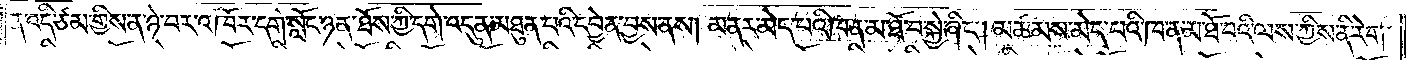ན་འདི་ཙམ་གྱིས་ན་ཉེ་བར་འཁོར་དགེ་སློང་ཉན་ཐོས་ཀྱི་དགེ་འདུན་མཐུན་པའི་དབྱེན་བྱས་ནས། མནར་མེད་པའི་ཁ་ན་མ་ཐོ་བ་སྐྱེ་ཞིང༌། མཚམས་མེད་པའི་ཁ་ན་མ་ཐོ་བའི་ལས་ཀྱིས་ནི་རེག་
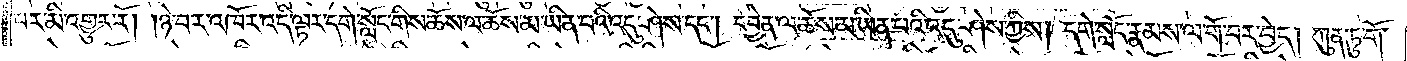པར་མི་འགྱུར་རོ། །ཉེ་བར་འཁོར་འདི་ལྟར་དགེ་སློང་གིས་ཆོས་ལ་ཆོས་མ་ཡིན་པའི་འདུ་ཤེས་དང༌། དབྱེན་ལ་ཆོས་མ་ཡིན་པའི་འདུ་ཤེས་ཀྱིས། དགེ་སློང་རྣམས་ལ་གོ་བར་བྱེད། །ཀུན་ཏུ་གོ་
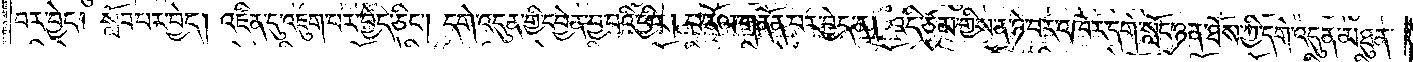བར་བྱེད། སློབ་པར་བྱེད། འཛིན་དུ་འཇུག་པར་བྱེད་ཅིང༌། དགེ་འདུན་གྱི་དབྱེན་བྱ་བའི་ཕྱིར། ཕ་རོལ་གནོན་པར་བྱེད་ན། འདི་ཙམ་གྱིས་ན་ཉེ་བར་འཁོར་དགེ་སློང་ཉན་ཐོས་ཀྱི་དགེ་འདུན་མཐུན་
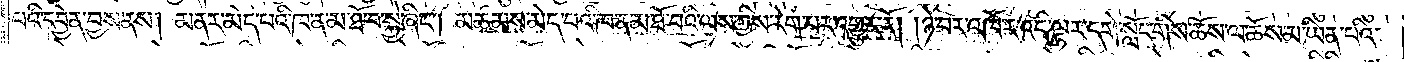པའི་དབྱེན་བྱས་ནས། མནར་མེད་པའི་ཁ་ན་མ་ཐོ་བ་སྐྱེ་ཞིང༌། མཚམས་མེད་པའི་ཁ་ན་མ་ཐོ་བའི་ལས་ཀྱིས་རེག་པར་འགྱུར་རོ། །ཉེ་བར་འཁོར་འདི་ལྟར་དགེ་སློང་གིས་ཆོས་ལ་ཆོས་མ་ཡིན་པའི་
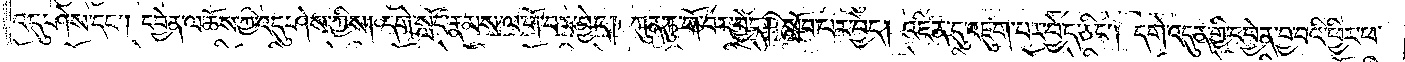འདུ་ཤེས་དང༌། དབྱེན་ལ་ཆོས་ཀྱི་འདུ་ཤེས་ཀྱིས། དགེ་སློང་རྣམས་ལ་གོ་བར་བྱེད། ཀུན་ཏུ་གོ་བར་བྱེད། སློབ་པར་བྱེད། འཛིན་དུ་འཇུག་པར་བྱེད་ཅིང༌། དགེ་འདུན་གྱི་དབྱེན་བྱ་བའི་ཕྱིར་ཕ་
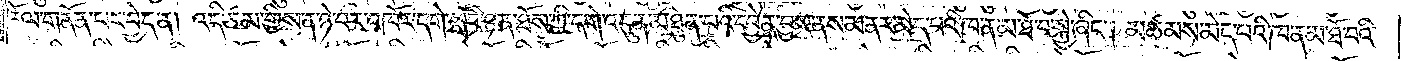རོལ་གནོན་པར་བྱེད་ན། འདི་ཙམ་གྱིས་ན་ཉེ་བར་འཁོར་དགེ་སློང་ཉན་ཐོས་ཀྱི་དགེ་འདུན་མཐུན་པའི་དབྱེན་བྱས་ནས་མནར་མེད་པའི་ཁ་ན་མ་ཐོ་བ་སྐྱེ་ཞིང༌། མཚམས་མེད་པའི་ཁ་ན་མ་ཐོ་བའི་
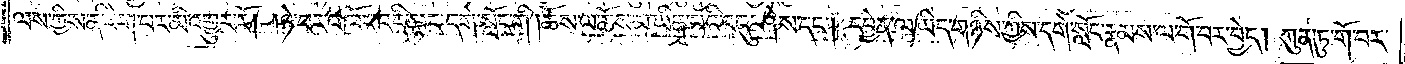ལས་ཀྱིས་ནི་རེག་པར་མི་འགྱུར་རོ། །ཉེ་བར་འཁོར་འདི་ལྟར་དགེ་སློང་གི །ཆོས་ལ་ཆོས་མ་ཡིན་པའི་འདུ་ཤེས་དང༌། དབྱེན་ལ་ཡིད་གཉིས་ཀྱིས་དགེ་སློང་རྣམས་ལ་གོ་བར་བྱེད། ཀུན་ཏུ་གོ་བར་
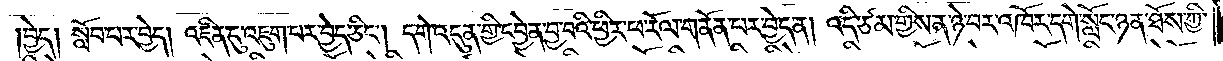།བྱེད། སློབ་པར་བྱེད། འཛིན་དུ་འཇུག་པར་འཇུག་པར་བྱེད་ཅིང༌། དགེ་འདུན་གྱི་དབྱེན་བྱ་བའི་ཕྱིར་ཕ་རོལ་གནོན་པར་བྱེད་ན། འདི་ཙམ་གྱིས་ན་ཉེ་བར་འཁོར་དགེ་སློང་ཉན་ཐོས་ཀྱི་
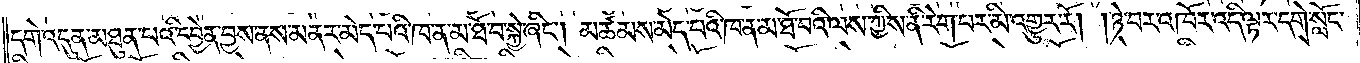དགེ་འདུན་མཐུན་པའི་དབྱེན་བྱས་ནས་མནར་མེད་པའི་ཁ་ན་མ་ཐོ་བ་སྐྱེ་ཞིང༌། མཚམས་མེད་པའི་ཁ་ན་མ་ཐོ་བའི་ལས་ཀྱིས་ནི་རེག་པར་མི་འགྱུར་རོ། །ཉེ་བར་འཁོར་འདི་ལྟར་དགེ་སློང་
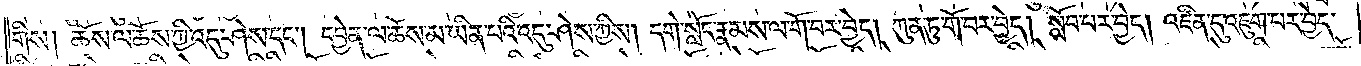གིས། ཆོས་ལ་ཆོས་ཀྱི་འདུ་ཤེས་དང༌། དབྱེན་ལ་ཆོས་མ་ཡིན་པའི་འདུ་ཤེས་ཀྱིས། དགེ་སློང་རྣམས་ལ་གོ་བར་བྱེད། ཀུན་ཏུ་གོ་བར་བྱེད། སློབ་པར་བྱེད། འཛིན་དུ་འཇུག་པར་བྱེད་
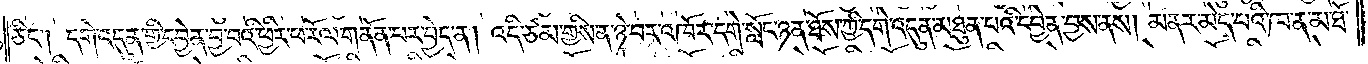ཅིང༌། དགེ་འདུན་གྱི་དབྱེན་བྱ་བའི་ཕྱིར་ཕ་རོལ་གནོན་པར་བྱེད་ན། འདི་ཙམ་གྱིས་ན་ཉེ་བར་འཁོར་དགེ་སློང་ཉན་ཐོས་ཀྱི་དགེ་འདུན་མཐུན་པའི་དབྱེན་བྱས་ནས། མནར་མེད་པའི་ཁ་ན་མ་ཐོ་
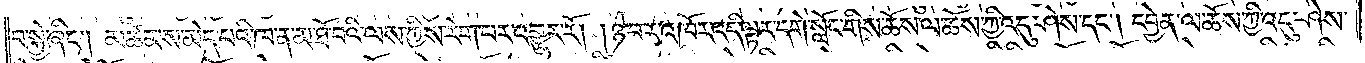བ་སྐྱེ་ཞིང༌། མཚམས་མེད་པའི་ཁ་ན་མ་ཐོ་བའི་ལས་ཀྱིས་རེག་པར་འགྱུར་རོ། །ཉེ་བར་འཁོར་འདི་ལྟར་དགེ་སློང་གིས་ཆོས་ལ་ཆོས་ཀྱི་འདུ་ཤེས་དང༌། དབྱེན་ལ་ཆོས་ཀྱི་འདུ་ཤེས་
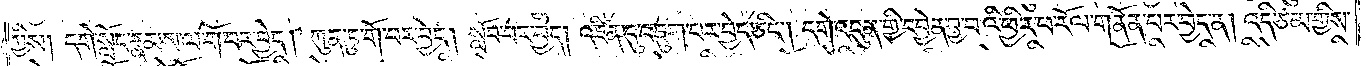ཀྱིས། དགེ་སློང་རྣམས་ལ་གོ་བར་བྱེད། ཀུན་ཏུ་གོ་བར་བྱེད། སློབ་པར་བྱེད། འཛིན་དུ་འཇུག་པར་བྱེད་ཅིང༌། དགེ་འདུན་གྱི་དབྱེན་བྱ་བའི་ཕྱིར་ཕ་རོལ་གནོན་པར་བྱེད་ན། འདི་ཙམ་གྱིས་
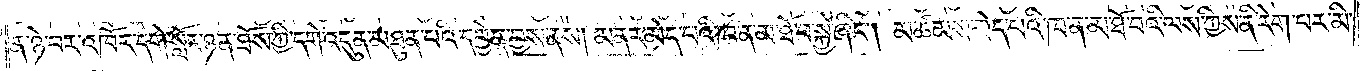ན་ཉེ་བར་འཁོར་དགེ་སློང་ཉན་ཐོས་ཀྱི་དགེ་འདུན་མཐུན་པའི་དབྱེན་བྱས་ནས། མནར་མེད་པའི་ཁ་ན་མ་ཐོ་བ་སྐྱེ་ཞིང༌། མཚམས་མེད་པའི་ཁ་ན་མ་ཐོ་བའི་ལས་ཀྱིས་ནི་རེག་པར་མི་
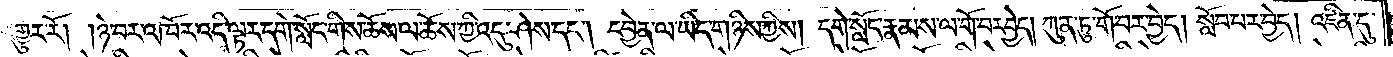འགྱུར་རོ། །ཉེ་བར་འཁོར་འདི་ལྟར་དགེ་སློང་གིས་ཆོས་ལ་ཆོས་ཀྱི་འདུ་ཤེས་དང༌། དབྱེན་ལ་ཡིད་གཉིས་ཀྱིས། དགེ་སློང་རྣམས་ལ་གོ་བར་བྱེད། ཀུན་ཏུ་གོ་བར་བྱེད། སློབ་པར་བྱེད། འཛིན་དུ་
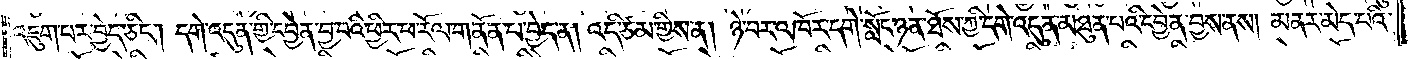འཇུག་པར་བྱེད་ཅིང༌། དགེ་འདུན་གྱི་དབྱེན་བྱ་བའི་ཕྱིར་ཕ་རོལ་གནོན་པ་བྱེད་ན། འདི་ཙམ་གྱིས་ན། ཉེ་བར་འཁོར་དགེ་སློང་ཉན་ཐོས་ཀྱི་དགེ་འདུན་མཐུན་པའི་དབྱེན་བྱས་ནས། མནར་མེད་པའི་
